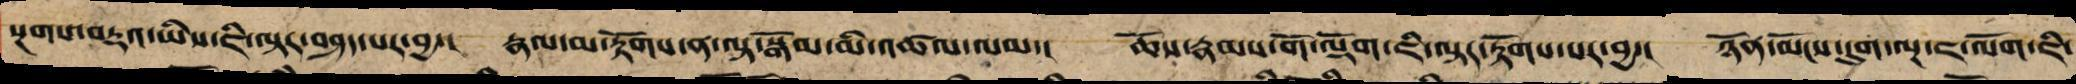སྔགས་བརྡའ་ཡིས་ཇི་ལྟར་བཤད་པར་བྱ་། རྣལ་མ་རྟོགས་ནས་བལྟ་སྒོམ་མི་འཚལ་ལམ་། ཆོས་རྣམས་གོ་ལྡོག་ཇི་ལྟར་རྟོགས་པར་བྱ་། ཉོན་མོངས་དུག་ལྔ་ཇ་ལོག་ཇི་
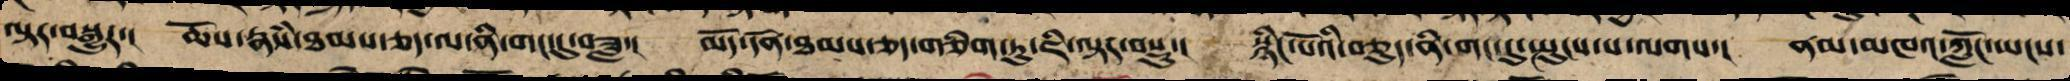ལྟར་བསྒྱུར་། ཆོས་རྣཾས་ཐམས་ཅད་ལ་ནི་གང་དུ་བ་ཟླ། མདོ་དོན་ཐམས་ཅད་གཅིག་ཏུ་ཇི་ལྟར་བསྡུ་། སྙིང་པོའི་བཅུད་ནི་གང་དུ་སྤུངས་པ་ལགས་། ནམ་མཁའ་ཀློང་ཡངས་
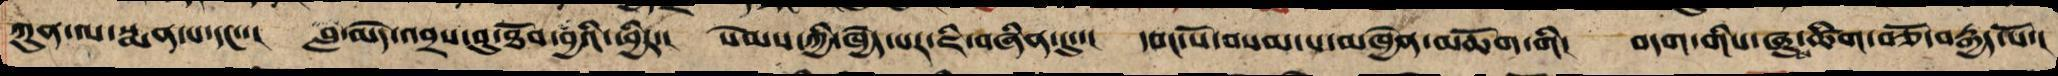ཀུན་ལ་སྨན་པ་དང་་། བླ་མེད་འབྲས་བུ་ཐོབ་བྱའི་ཕྱིར་། སེམས་ཀྱི་ཁྱད་པར་ཇི་བཞིན་དུ་། དབང་པོ་བསམ་པ་མཁྱེན་མཆོག་གིས་། བདག་གི་ཞུས་ཚིག་བཅོ་བརྒྱད་པོ་།
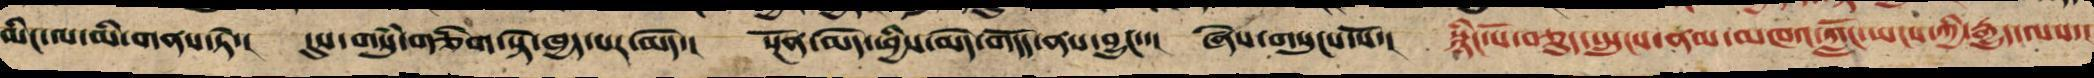མིང་ལ་མི་གནས་ཏེ་། དུས་གསུཾ་གཅིག་སྟེ་ཁྱད་པར་མེད་། སྔོན་མེད་ཕྱིས་མེད་གདོད་ནས་དང་་། ཞེས་གསུངས་སོ་། སྙིང་པོ་བཅུད་སྤུངས་ནམ་མཁའ་ཀློང་ཡངས་ཀྱི་རྒྱུད་ལས་།
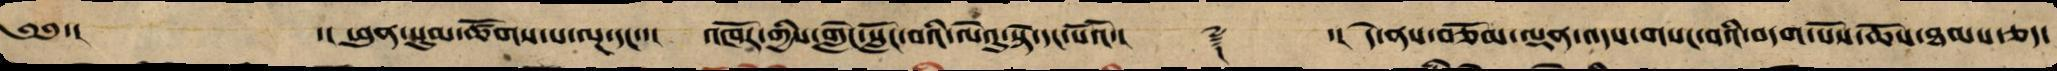༄༅་། ་། ཕུན་སུམ་ཚོགས་པ་ལྔ་དང་་། འཁོར་གྱིས་གླེང་སློང་བའི་ལེའུ་སྟེ་དང་པོའོ་།། ༈ ་།། དེ་ནས་བཅོམ་ལྡན་འདས་གསང་བའི་བདག་པོས་ཆོས་ཐམས་ཅད་
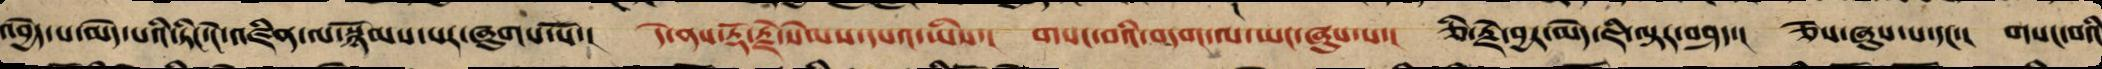འབྱེད་པ་མེད་པའི་ཏིང་ངེ་འཛིན་ལ་སྙོམས་པར་ཞུགས་་སོ། དེ་ནས་རྡོ་རྗེ་སེམས་དཔའ་ཡིས་། གསང་བའི་བདག་ལ་ཡང་ཞུས་པ་། ཅི་རྗེ་བྱར་མེད་ཇི་ལྟར་བཤད་། ཅེས་ཞུས་པ་དང་། གསང་བའི
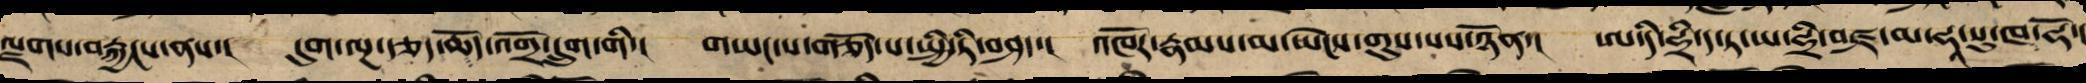ལྗགས་བརྐྱངས་ནས་། དུག་ལྔ་རྩད་གཅོད་འགྲོ་དྲུག་གི་། གཡང་ས་གཅོད་པ་སྤྱི་ཏི་བཤད་། འཁོར་རྣམས་མ་ཡེངས་གུས་པས་ཉོན་། ཨ་དི་ཧྲྀ་ད་ཡ་ཧྲི་བཛྲ་མ་ཧཱ་སུ་ཁ་ཧོ་།
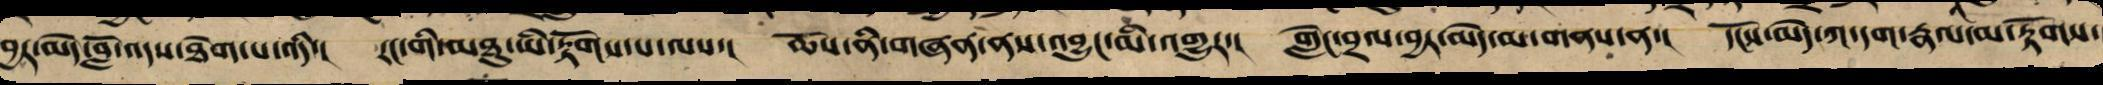བྱར་མེད་བློ་འདས་ཐེག་པ་འདི་། རང་གི་མཐུ་ཡི་རྟོགས་པ་ལས་། ཆོས་ནི་གཞན་ནས་འབྱུང་མི་འགྱུར་། གླེང་བྲལ་བྱར་མེད་ལ་གནས་ན་། དངོས་མེད་ཀ་དག་རྣལ་མ་རྟོགས་
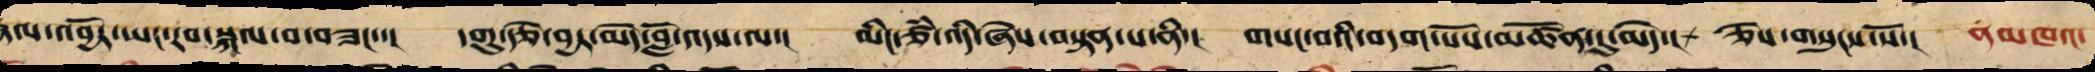རྣལ་འབྱོར་ཡང་རབ་སྐལ་པ་བཟང་་། དགུ་རྩེ་བྱར་མེད་བློ་འདས་ལ་། མིང་ཙཾ་འདི་ཞེས་བསྟན་པ་ནི་། གསང་བའི་བདག་པོས་མཚོན་དུ་མེད་། ཅེས་གསུངས་སོ་། ནམ་མཁའ་
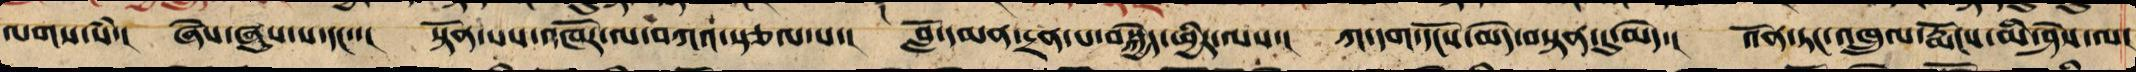ལགས་སཾ་། ཞེས་ཞུས་པ་དང་་། སྟོན་པས་འཁོར་ལ་བཀའ་སྩལ་པ་། བློ་དམན་དྲན་པ་བསྐྱེད་ཕྱིར་ལས་། ཀ་དག་དངོས་མེད་བསྟན་དུ་མེད་། འོན་ཏང་འཁྲུལ་རྨོངས་མི་ཤེས་ལ་
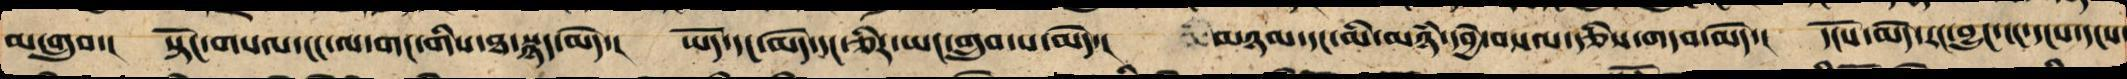མ་གྲུབ་། སྟོང་གསལ་ངང་ལ་གང་གི་ཐ་སྙད་མེད་། ཡོད་དང་མེད་དང་ཅིར་ཡང་གྲུབ་པ་མེད་། མཉམ་དང་མི་མཉམ་དབྱེ་བསལ་རྩིས་གདབ་མེད་། དངོས་མེད་རང་བྱུང་ངང་དངས་དངས
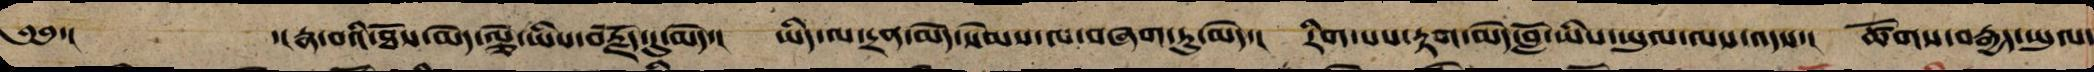༄༅་།  ་།རྣ་བས་ཐོས་མེད་ལྕེ་ཡིས་བརྗོད་དུ་མེད་། ཡིད་ལ་དྲན་མེད་སེམས་ལ་གཞག་ཏུ་མེད་། རིག་པས་རྟག་མེད་བློ་ཡི་ཡུལ་ལས་འདས་། ཚོགས་བརྒྱད་ཡུལ་
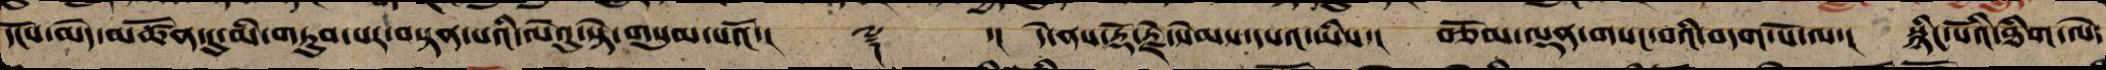དངོས་མེད་མཚོན་དུ་མི་གཏུབ་པར་བསྟན་པའི་ལེའུ་སྟེ་གསུམ་པའོ་།། ༈ ་།། དེ་ནས་རྡོ་རྗེ་སེམས་དཔའ་ཡིས་། བཅོམ་ལྡན་གསང་བའི་བདག་པོ་ལ་། སྙིང་པོའི་ཐིག་ལེ་
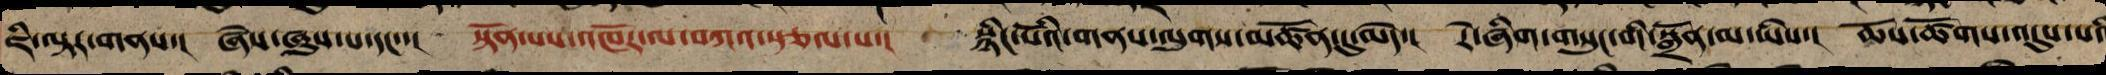ཇི་ལྟར་གནས་། ཞེས་ཞུས་པ་དང་་། སྟོན་པས་འཁོར་ལ་བཀའ་སྩལ་པ་། སྙིང་པོའི་གནས་ལུགས་མཚོན་དུ་མེད་། རེ་ཞིག་གསུང་གི་སྒྲོན་མ་ཡིས་། ཆོས་ཚོགས་འདུས་པའི
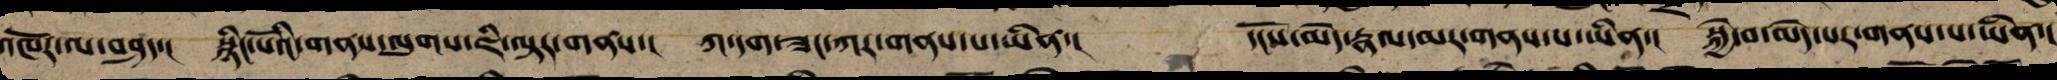འཁོར་ལ་བཤད་། སྙིང་པོའི་གནས་ལུགས་འདི་ལྟར་གནས་། ཀ་དག་ཟང་ཀར་གནས་པ་ཡིན་། དངོས་མེད་རྣལ་མར་གནས་པ་ཡིན་། སྐྱེ་བ་མེད་པར་གནས་པ་ཡིན་།
